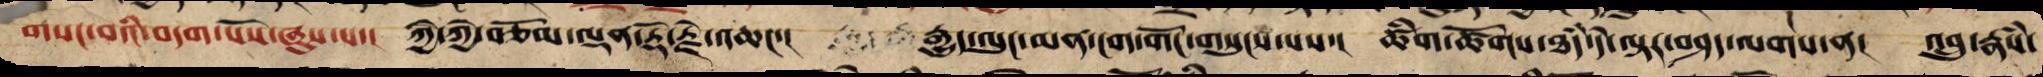གསང་བའི་བདག་པོས་ཞུས་པ་། ཀྱེ་ཀྱེ་བཅོམ་ལྡན་རྡོ་རྗེ་འཆང་། རྒྱུད་ལུང་མན་ངག་གོང་གསུངས་པས་། ཚིག་ཚོགས་ཐཾད་དེ་ལྟར་བཤད་ལགས་ན། འབྲུ་རྣཾས་
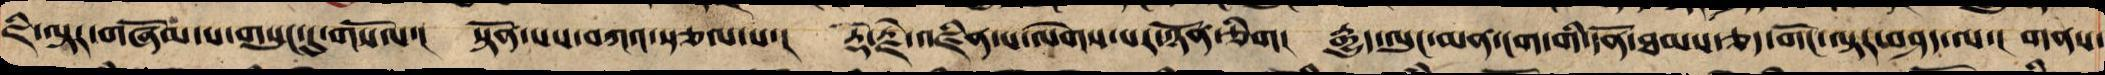ཇི་ལྟར་གཞོམ་པ་གསུང་དུ་གསོལ་། སྟོན་པས་བཀའ་སྩལ་པ་། རྡོ་རྗེ་འཛིན་པ་ལེགས་པར་ཉོན་ཅིག། རྒྱུད་ལུང་མན་ངག་གི་དོན་ཐམས་ཅད་གོང་ལྟར་བཤད་ལ་། གནས་
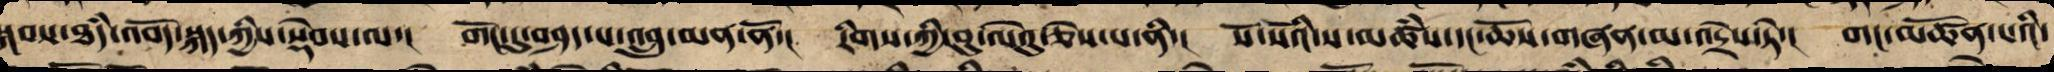སྐབས་ཐཾད་འབོད་སྐད་ཀྱིས་སྡེབས་ལ་། གོང་དུ་བཤད་པ་འབྲུ་མན་ནོ་། རིགས་ཀྱི་བུ་ལེའུ་ཅེས་པ་ནི་། སོ་སོའི་ས་མཚཾས་དང་ཆོས་གཞན་མ་འདྲེས་ཏེ་། གང་མཚོན་པའི་
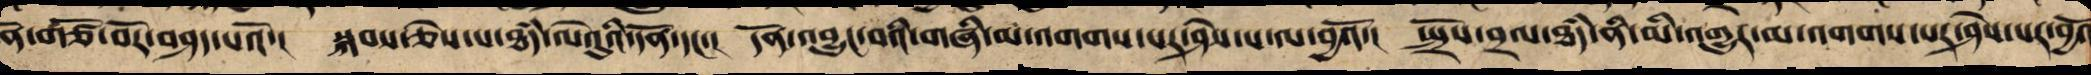ན་གཙོ་བོར་བཤད་པའོ་། སྐབས་ཅེས་པ་ཐཾད་ལེའུའི་དོན་དང་། དོན་འབྱུང་བའི་གཞི་མ་འགགས་པར་ཤེས་པ་ལ་བྱའོ་། སྤྲོས་བྲལ་ཐཾད་ནི་མི་འགྱུར་མ་འགགས་པར་ཤེས་པར་བྱའོ
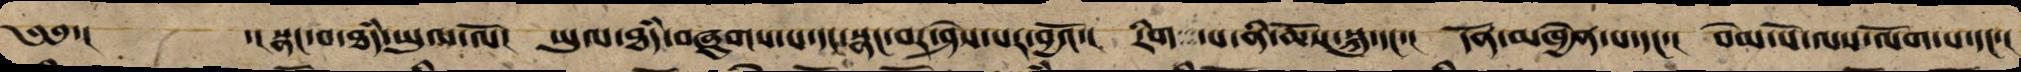༄༅་། ་།སྣང་བ་ཐཾད་ཡུལ་ལོ། ཡུལ་ཐཾད་བཞུགས་པ་དང་སྣང་བར་ཤེས་པར་བྱའོ་། རིག ་པ་ཆོས་སྐུ་དང་། དོན་མཁྱེན་པ་དང་། བེམ་པོ་ལས་ལོག་པ་དང་།
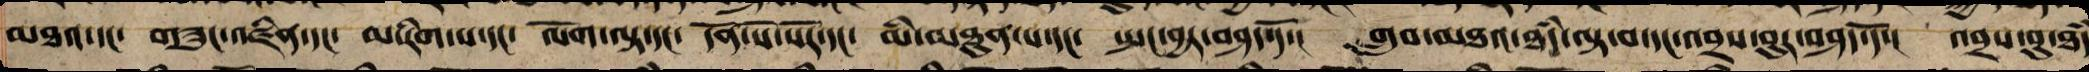མཐའ་དང་ གཟུང་འཛིན་དང་ མ་རིག་པ་དང་ ལོག་ལྟ་དང་ དོན་སོ་སོར་དང་ མི་མཐུན་པ་དང་ སྤང་བྱར་བཤད་དོ་། གྲུབ་མཐའ་ཐཾད་ལྟ་བ་དང་འབྲས་བུར་བཤད་དོ་། འབྲས་བུ་ཐཾད
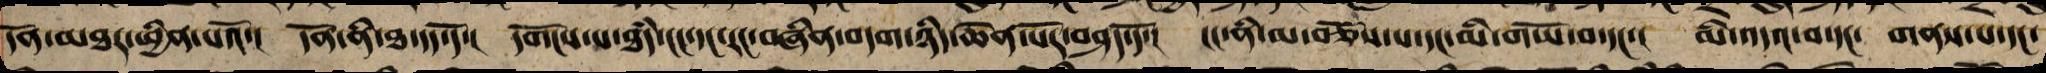དོན་མཐར་ཕྱིན་པའོ་། དོན་ནི་ཐ་དད་དོ་། དགོངས་པ་ཐཾད་ངང་དང་རང་བཞིན་བདག་ཉིད་ཆེན་པོར་བཤད་དོ་། ངང་ནི་མ་བཅོས་པ་དང་མི་གཡོ་བ་དང་། མི་འདའ་བ་དང་ གནས་པ་དང་
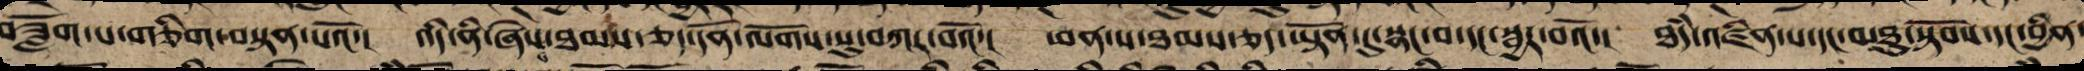བཟློག་པ་གཅིག་བསྟན་པའོ་། འདི་ནི་ཞེས་ཐམས་ཅད་དོན་ལོགས་སུ་བཀར་བའོ་། ཕན་པ་ཐམས་ཅད་ཡྟོན་དུ་སྣང་བ་དང་སྦྱར་བའོ་། ཐཾད་འཛིན་པ་དང་མཐུ་སྟོབས་དང་བྱིན་
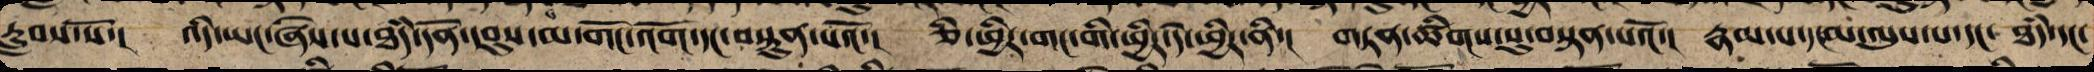རླབས་སོ་། འདི་ཡང་ཞེས་པ་ཐཾད་དོན་དབུས་མ་གོང་འོག་དང་བསྟུན་པའོ་། ཅི་ཕྱིར་གང་གིས་ཕྱིར་དེ་ཕྱིར་ནི་། གཏན་ཚིགས་སུ་བསྟན་པའོ་། རྣམ་པ་མ་ལུས་པ་དང་ ཐཾད་དང་
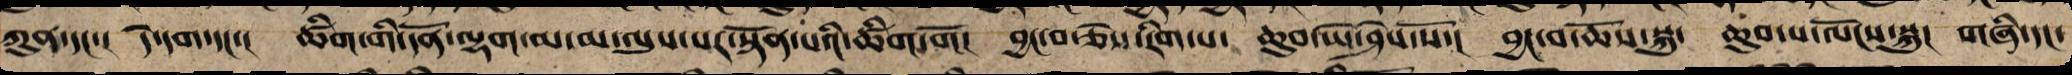ཀུན་དང་། དེ་དག་དང་། ཚིག་གི་དོན་ལྷག་མ་མ་ལུས་པར་སྟོན་པའི་ཚིག་གོ། བྱང་བ་ཅེས་རིག་པ་ ཆུབ་ཡེ་ཤེས་སོ་། བྱང་བ་ཆོས་སྐུ་ ཆུབ་པ་ལོངས་སྐུ། གཞི་དང་
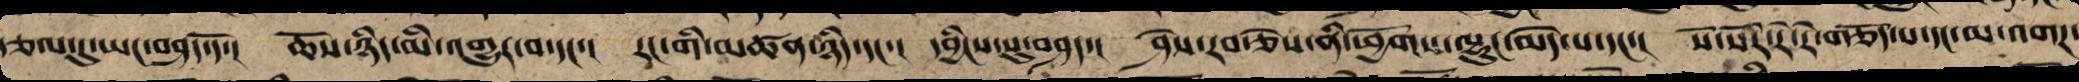རྩལ་དུ་ཡང་བཤད་དོ་། ཆོས་ཉིད་མི་འགྱུར་བ་དང་། རང་གི་མཚན་ཉིད་དང་། དབྱིངས་སུ་བཤད་། ཤེས་རབ་ཅེས་ནི་ཕྱོགས་ལྷུང་མེད་པ་དང་། སོ་སོར་རེ་རེ་གཅོད་པ་དང་མ་འགཌ་
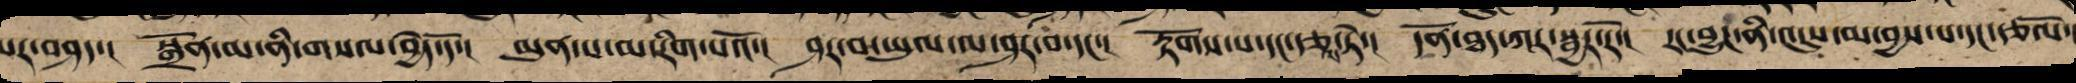པར་བཤད་། སྒྲོན་མ་ནི་གསལ་བྱེད་དོ་། མུན་པ་མ་རིག་པའོ་། ཤར་བ་ཡུལ་ལ་ཤར་བ་དང་། རྟོགས་པ་དང་རྩ་ཏེ་། དོན་ཐད་ཀར་སྦྱར་རོ་། རང་བྱུང་ནི་འདུས་མ་བྱས་པ་དང་རྩལོ་།
